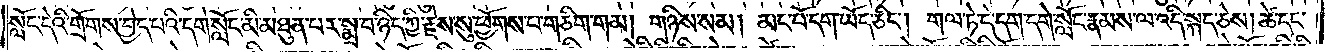སློང་དེའི་གྲོགས་བྱེད་པའི་དགེ་སློང་མི་མཐུན་པར་སྨྲ་བ་ཉིད་ཀྱི་རྗེས་སུ་ཕྱོགས་པ་གཅིག་གམ། གཉིས་སམ། མང་པོ་དག་ཡོད་ཅིང༌། གལ་ཏེ་དེ་དག་དགེ་སློང་རྣམས་ལ་འདི་སྐད་ཅེས། ཚེ་དང་
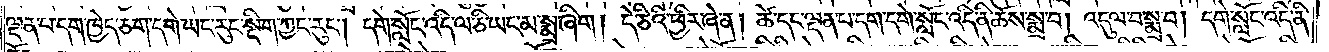ལྡན་པ་དག་ཁྱེད་ཅག་དགེ་ཡང་རུང་སྡིག་ཀྱང་རུང༌། དགེ་སློང་འདི་ལ་ཅི་ཡང་མ་སྨྲ་ཞིག། དེ་ཅིའི་ཕྱིར་ཞེ་ན། ཚེ་དང་ལྡན་པ་དག་དགེ་སློང་འདི་ནི་ཆོས་སྨྲ་བ། འདུལ་བ་སྨྲ་བ། དགེ་སློང་འདི་ནི་
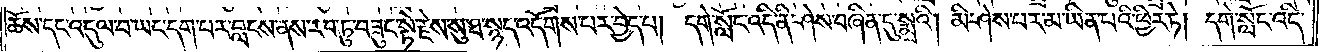ཆོས་དང་འདུལ་བ་ཡང་དག་པར་བླངས་ནས་རབ་ཏུ་བཟུང་སྟེ་རྗེས་སུ་ཐ་སྙད་འདོགས་པར་བྱེད་པ། དགེ་སློང་འདི་ནི་ཤེས་བཞིན་དུ་སྨྲའི། མི་ཤེས་པར་མ་ཡིན་པའི་ཕྱིར་ཏེ། དགེ་སློང་འདི་
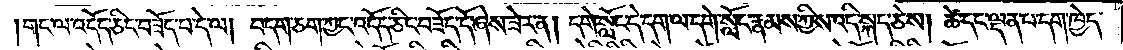།གང་ལ་འདོད་ཅིང་བཟོད་པ་དེ་ལ། བདག་ཅག་ཀྱང་འདོད་ཅིང་བཟོད་དོ་ཞེས་ཟེར་ན། དགེ་སློང་དེ་དག་ལ་དགེ་སློང་རྣམས་ཀྱིས་འདི་སྐད་ཅེས། ཚེ་དང་ལྡན་པ་དག་ཁྱེད་
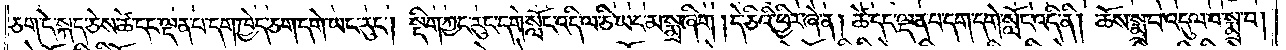ཅག་དེ་སྐད་ཅེས་ཚེ་དང་ལྡན་པ་དག་ཁྱེད་ཅག་དགེ་ཡང་རུང༌། སྡིག་ཀྱང་རུང་དགེ་སློང་འདི་ལ་ཅི་ཡང་མ་སྨྲ་ཞིག །དེ་ཅིའི་ཕྱིར་ཞེ་ན། ཚེ་དང་ལྡན་པ་དག་དགེ་སློང་འདི་ནི། ཆོས་སྨྲ་བ་འདུལ་བ་སྨྲ་བ།
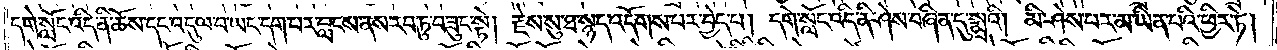དགེ་སློང་འདི་ནི་ཆོས་དང་འདུལ་བ་ཡང་དག་པར་བླངས་ནས་རབ་ཏུ་བཟུང་སྟེ། རྗེས་སུ་ཐ་སྙད་འདོགས་པར་བྱེད་པ། དགེ་སློང་འདི་ནི་ཤེས་བཞིན་དུ་སྨྲའི། མི་ཤེས་པར་མ་ཡིན་པའི་ཕྱིར་ཏེ།
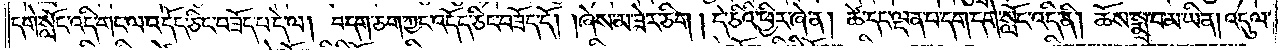དགེ་སློང་འདི་གང་ལ་འདོད་ཅིང་བཟོད་པ་དེ་ལ། བདག་ཅག་ཀྱང་འདོད་ཅིང་བཟོད་དོ། །ཞེས་མ་ཟེར་ཅིག །དེ་ཅིའི་ཕྱིར་ཞེ་ན། ཚེ་དང་ལྡན་པ་དག་དགེ་སློང་འདི་ནི། ཆོས་སྨྲ་བ་མ་ཡིན། འདུལ་
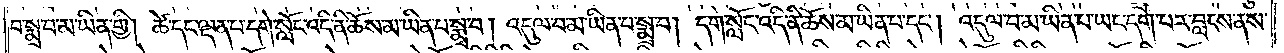བ་སྨྲ་བ་མ་ཡིན་གྱི། ཚེ་དང་ལྡན་པ་དགེ་སློང་འདི་ནི་ཆོས་མ་ཡིན་པ་སྨྲ་བ། འདུལ་བ་མ་ཡིན་པ་སྨྲ་བ། དགེ་སློང་འདི་ནི་ཆོས་མ་ཡིན་པ་དང༌། འདུལ་བ་མ་ཡིན་པ་ཡང་དག་པར་བླངས་ནས་
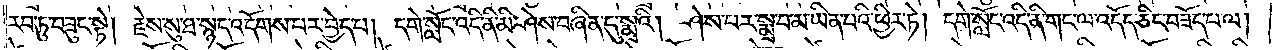རབ་ཏུ་བཟུང་སྟེ། རྗེས་སུ་ཐ་སྙད་འདོགས་པར་བྱེད་པ། དགེ་སློང་འདི་ནི་མི་ཤེས་བཞིན་དུ་སྨྲའི། ཤེས་པར་སྨྲ་བ་མ་ཡིན་པའི་ཕྱིར་ཏེ། དགེ་སློང་འདི་ནི་གང་ལ་འདོད་ཅིང་བཟོད་པ་ལ།
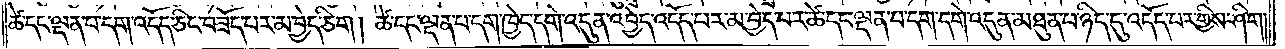ཚེ་དང་ལྡན་པ་དག་འདོད་ཅིང་བཟོད་པར་མ་བྱེད་ཅིག། ཚེ་དང་ལྡན་པ་དག་ཁྱེད་དགེ་འདུན་འབྱེད་འདོད་པར་མ་བྱེད་པར་ཚེ་དང་ལྡན་པ་དག་དགེ་འདུན་མཐུན་པ་ཉིད་དུ་འདོད་པར་གྱིས་ཤིག།
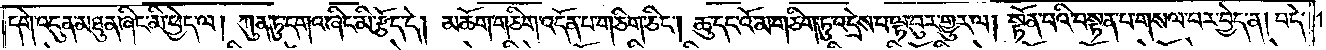དགེ་འདུན་མཐུན་ཞིང་མི་ཕྱེད་ལ། ཀུན་ཏུ་དགའ་ཞིང་མི་རྩོད་དེ། མཆོག་གཅིག་འདོན་པ་གཅིག་ཅིང༌། ཆུ་དང་འོ་མ་གཅིག་ཏུ་འདྲེས་པ་ལྟ་བུར་གྱུར་ལ། སྟོན་པའི་བསྟན་པ་གསལ་བར་བྱེད་ན། བདེ་
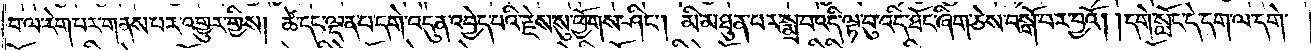བ་ལ་རེག་པར་གནས་པར་འགྱུར་གྱིས། ཚེ་དང་ལྡན་པ་དགེ་འདུན་འབྱེད་པའི་རྗེས་སུ་ཕྱོགས་ཤིང༌། མི་མཐུན་པར་སྨྲ་བ་འདི་ལྟ་བུ་འདི་ཐོང་ཞིག་ཅེས་བསྒོ་བར་བྱའོ། །དགེ་སློང་དེ་དག་ལ་དགེ་
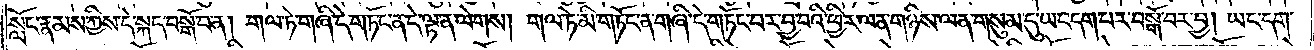སློང་རྣམས་ཀྱིས་དེ་སྐད་བསྒོ་བ་ན། གལ་ཏེ་གཞི་དེ་གཏོང་ན་དེ་ལྟ་ན་ལེགས། གལ་ཏེ་མི་གཏོང་ན་གཞི་དེ་གཏོང་བར་བྱ་བའི་ཕྱིར་ལན་གཉིས་ལན་གསུམ་དུ་ཡང་དག་པར་བསྒོ་བར་བྱ། ཡང་དག་
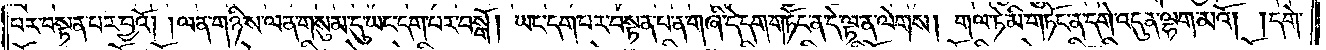པར་བསྟན་པར་བྱའོ། །ལན་གཉིས་ལན་གསུམ་དུ་ཡང་དག་པར་བསྒོ། ཡང་དག་པར་བསྟན་པ་ན་གཞི་དེ་དག་གཏོང་ན་དེ་ལྟ་ན་ལེགས། གལ་ཏེ་མི་གཏོང་ན་དགེ་འདུན་ལྷག་མའོ། །དགེ་
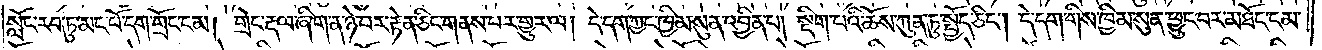སློང་རབ་ཏུ་མང་པོ་དག་གྲོང་ངམ། གྲོང་རྡལ་ཞིག་ན་ཉེ་བར་རྟེན་ཅིང་གནས་པར་གྱུར་ལ། དེ་དག་ཀྱང་ཁྱིམ་སུན་འབྱིན་པ། སྡིག་པའི་ཆོས་ཀུན་ཏུ་སྤྱོད་ཅིང༌། དེ་དག་གིས་ཁྱིམ་སུན་ཕྱུང་བར་མཐོང་ངམ་
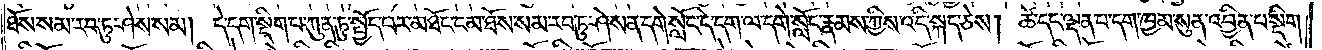ཐོས་སམ་རབ་ཏུ་ཤེས་སམ། དེ་དག་སྡིག་པ་ཀུན་ཏུ་སྤྱོད་པར་མཐོང་ངམ་ཐོས་སམ་རབ་ཏུ་ཤེས་ན་དགེ་སློང་དེ་དག་ལ་དགེ་སློང་རྣམས་ཀྱིས་འདི་སྐད་ཅེས། ཚེ་དང་ལྡན་པ་དག་ཁྱིམ་སུན་འབྱིན་པ་སྡིག་
